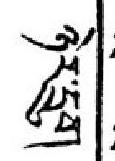ཉེར་དྲུག
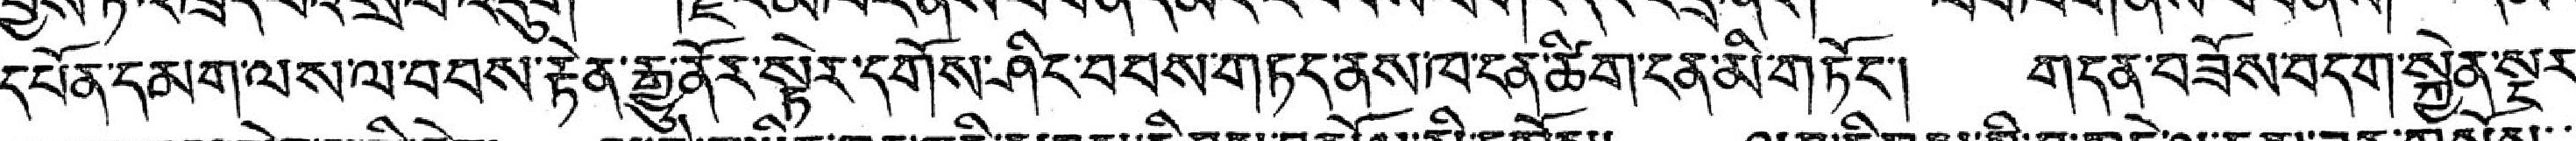དཔོན་དམག་ལས་ལ་བབས་རྟེན་རྒྱུ་ནོར་སྟེར་དགོས་ཤིང་བབས་གཏང་ནས་ཁ་ངན་ཚིག་ངན་མི་གཏོང་། གདན་བཟོས་བདག་སྐྱེན་སྔར་
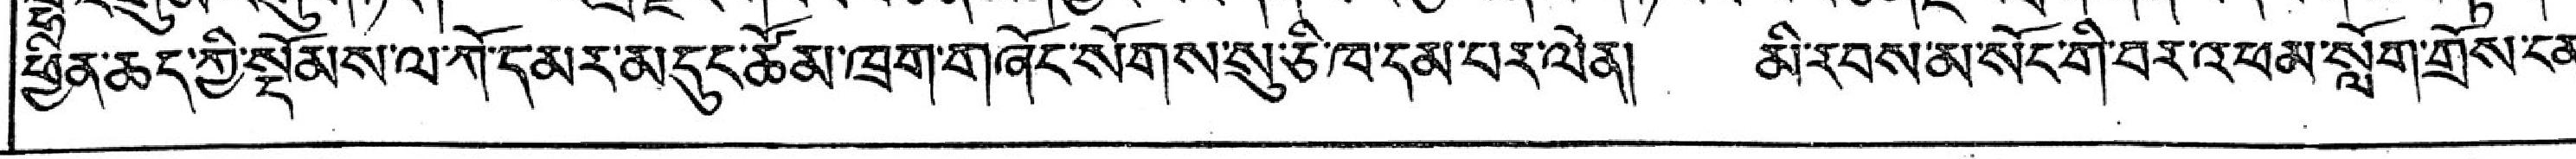ཕྱིན་ཆད་ཀྱི་སྡོམས་ལ་ཀོ་དམར་མདུང་ཚོམ་ཁྲག་གཞོང་སོགས་སུ་ཅི་ཁ་དམ་པར་ལེན། མི་རབས་མ་སོང་གི་བར་འཕམ་སློག་གྲོས་ངན་
